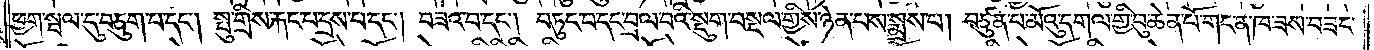ཕྱག་སྦལ་དུ་བཅུག་པ་དང༌། སྤུ་གྲིས་རྐང་པ་དྲས་པ་དང༌། བཟའ་བ་དང༌། བཏུང་བ་དང་བྲལ་བའི་སྡུག་བསྔལ་གྱིས་ཉེན་པས་སྨྲས་པ། བཙུན་པ་མོའུ་དགལ་གྱི་བུ་ཆེན་པོ་གང་ན་ཁ་ཟས་བཟང་
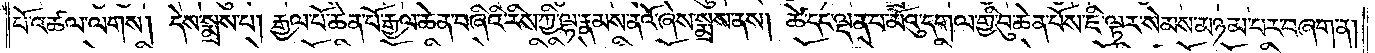པོ་འཚལ་ལགས། དེས་སྨྲས་པ། རྒྱལ་པོ་ཆེན་པོ་རྒྱལ་ཆེན་བཞིའི་རིས་ཀྱི་ལྷ་རྣམས་ནའོ་ཞེས་སྨྲས་ནས། ཚེ་དང་ལྡན་པ་མོའུ་དགལ་གྱི་བུ་ཆེན་པོས་ཇི་ལྟར་སེམས་མཉམ་པར་བཞག་ན།
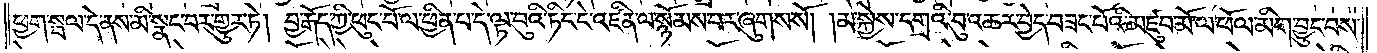ཕྱག་སྦལ་དེ་ནས་མི་སྣང་བར་གྱུར་ཏེ། བྱ་རྒོད་ཀྱི་ཕུང་པོ་ལ་ཕྱིན་པ་དེ་ལྟ་བུའི་ཏིང་ངེ་འཛིན་ལ་སྙོམས་པར་ཞུགས་སོ། །མ་སྐྱེས་དགྲའི་བུ་འཆར་བྱེད་བཟང་པོའི་མཛུབ་མོ་ལ་ཕོལ་མིག་བྱུང་བས་
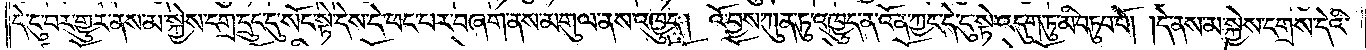དེ་ངུ་བར་གྱུར་ནས་མ་སྐྱེས་དགྲ་དྲུང་དུ་སོང་སྟེ་དེས་དེ་ཕང་པར་བཞག་ནས་མགུལ་ནས་འཁྱུད། འོ་བྱས་ཀུན་ཏུ་འཁྱུད་ན་འོན་ཀྱང་དེ་ངུ་སྟེ་འདུག་ཏུ་མི་བཏུབ་བོ། །དེ་ནས་མ་སྐྱེས་དགྲས་དེའི་
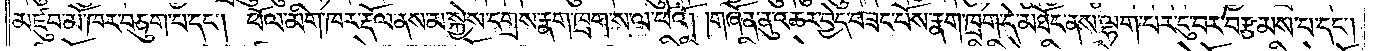མཛུབ་མོ་ཁར་བཅུག་པ་དང༌། ཕོལ་མིག་ཁར་རྡོལ་ནས་མ་སྐྱེས་དགྲས་རྣག་ཁྲག་ས་ལ་ཕོའོ། །གཞོན་ནུ་འཆར་བྱེད་བཟང་པོས་རྣག་ཁྲག་དེ་མཐོང་ནས་ལྷག་པར་ངུ་བར་བརྩམས་པ་དང༌།
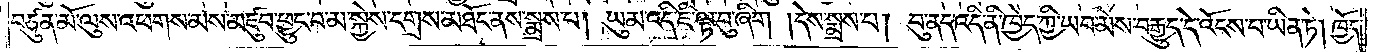བཙུན་མོ་ལུས་འཕགས་མས་མཛུབ་ཕྱུང་བ་མ་སྐྱེས་དགྲས་མཐོང་ནས་སྨྲས་པ། ཡུམ་འདི་ཇི་ལྟ་བུ་ཞིག །དེས་སྨྲས་པ། བུ་ནད་འདི་ནི་ཁྱེད་ཀྱི་ཡབ་མེས་བརྒྱུད་དེ་འོངས་པ་ཡིན་ཏེ། ཁྱོད་
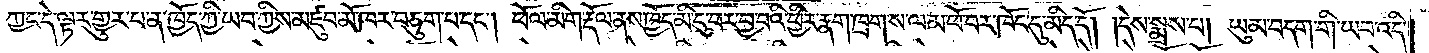ཀྱང་དེ་ལྟར་གྱུར་པ་ན་ཁྱོད་ཀྱི་ཡབ་ཀྱིས་མཛུབ་མོ་ཁར་བཅུག་པ་དང༌། ཕོལ་མིག་རྡོལ་ནས་ཁྱོད་མི་དུ་བར་བྱ་བའི་ཕྱིར་རྣག་ཁྲག་ས་ལམ་ཕོ་བར་ཁོང་དུ་མིད་དོ། །དེས་སྨྲས་པ། ཡུམ་བདག་གི་ཡབ་འདི་
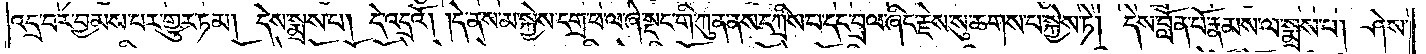འདྲ་བར་བྱམས་པར་གྱུར་ཏམ། དེས་སྨྲས་པ། དེ་འདྲའོ། །དེ་ནས་མ་སྐྱེས་དགྲ་ཕ་ལ་ཞེ་སྡང་གི་ཀུན་ནས་དཀྲིས་པ་དང་བྲལ་ཞིང་རྗེས་སུ་ཆགས་པ་སྐྱེས་ཏེ། དེས་བློན་པོ་རྣམས་ལ་སྨྲས་པ། ཤེས་
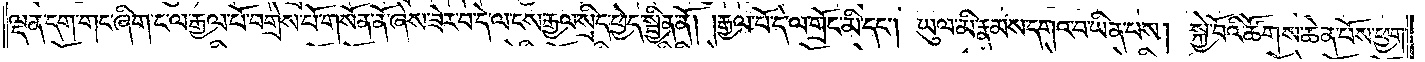ལྡན་དག་གང་ཞིག་ང་ལ་རྒྱལ་པོ་བགྲེས་པོ་གསོན་ནོ་ཞེས་ཟེར་བ་དེ་ལ་ངས་རྒྱལ་སྲིད་ཕྱེད་སྦྱིན་ནོ། །རྒྱལ་པོ་དེ་ལ་གྲོང་མི་དང༌། ཡུལ་མི་རྣམས་དགའ་བ་ཡིན་པས། སྐྱེ་བོའི་ཚོགས་ཆེན་པོས་ཕྱག་
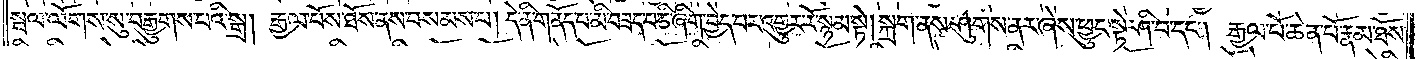སྦལ་ལོགས་སུ་བརྒྱུགས་པའི་སྒྲ། རྒྱལ་པོས་ཐོས་ནས་བསམས་པ། དེ་ནི་གནོད་པ་མི་བཟད་པ་ཅི་ཞིག་བྱེད་པར་འགྱུར་རོ་སྙམ་སྟེ། སྐྲག་ནས་ཤུགས་ནར་ཞེས་ཕྱུང་སྟེ་ཤི་བ་དང༌། རྒྱལ་པོ་ཆེན་པོ་རྣམ་ཐོས་
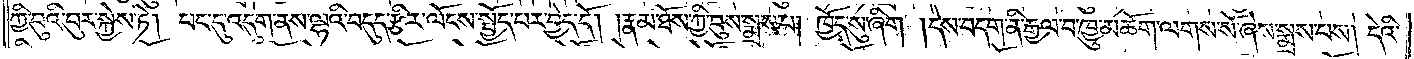ཀྱི་བུའི་བུར་སྐྱེས་ཏེ། པང་དུ་འདུག་ནས་ལྷའི་བདུད་རྩིར་ལོངས་སྤྱོད་པར་བྱེད་དོ། །རྣམ་ཐོས་ཀྱི་བུས་སྨྲས་པ། ཁྱོད་སུ་ཞིག །དེས་བདག་ནི་རྒྱལ་བ་ཁྱུ་མཆོག་ལགས་སོ་ཞེས་སྨྲས་པས། དེའི་
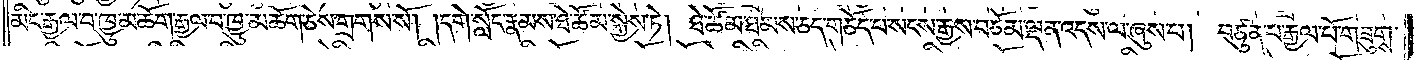མིང་རྒྱལ་བ་ཁྱུ་མཆོག་རྒྱལ་བ་ཁྱུ་མཆོག་ཅེས་གྲགས་སོ། །དགེ་སློང་རྣམས་ཐེ་ཚོམ་སྐྱེས་ཏེ། ཐེ་ཚོམ་ཐམས་ཅད་གཅོད་པ་སངས་རྒྱས་བཅོམ་ལྡན་འདས་ལ་ཞུས་པ། བཙུན་པ་རྒྱལ་པོ་གཟུགས་
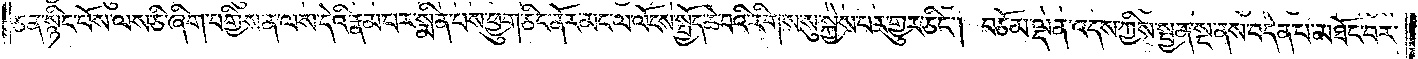ཅན་སྙིང་པོས་ལས་ཅི་ཞིག་བགྱིས་ན་ལས་དེའི་རྣམ་པར་སྨིན་པས་ཕྱུག་ཅིང་ནོར་མང་ལ་ལོངས་སྤྱོད་ཆེ་བའི་རིགས་སུ་སྐྱེས་པར་གྱུར་ཅིང༌། བཅོམ་ལྡན་འདས་ཀྱིས་སྤྱན་སྔ་ནས་བདེན་པ་མཐོང་བར་
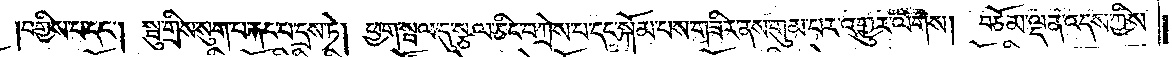བགྱིས་པ་དང༌། སྤུ་གྲིས་སུག་པ་རྐང་པ་དྲས་ཏེ། ཕྱག་སྦལ་དུ་སྩལ་ཅིང་བཀྲེས་པ་དང་སྐོམ་པས་གཟིར་ནས་གུམ་པར་འགྱུར་ལགས། བཅོམ་ལྡན་འདས་ཀྱིས་
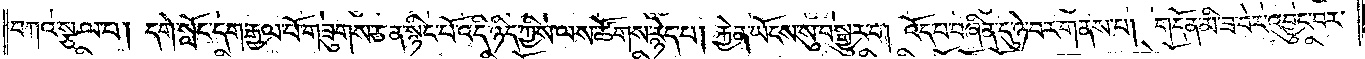བཀའ་སྩལ་པ། དགེ་སློང་དག་རྒྱལ་པོ་གཟུགས་ཅན་སྙིང་པོ་འདི་ཉིད་ཀྱིས་ལས་ཚོགས་རྙེད་པ། རྐྱེན་ཡོངས་སུ་བསྒྱུར་བ། འོད་པ་བཞིན་དུ་ཉེ་བར་གནས་པ། གདོན་མི་ཟ་བར་འབྱུང་བར་
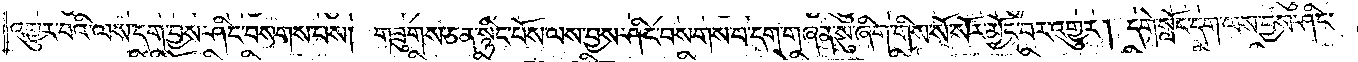འགྱུར་བའི་ལས་དག་བྱས་ཤིང་བསགས་པས། གཟུགས་ཅན་སྙིང་པོས་ལས་བྱས་ཤིང་བསགས་པ་དག་གཞན་སུ་ཞིག་གིས་སོ་སོར་མྱོང་བར་འགྱུར། དགེ་སློང་དག་ལས་བྱས་ཤིང་
